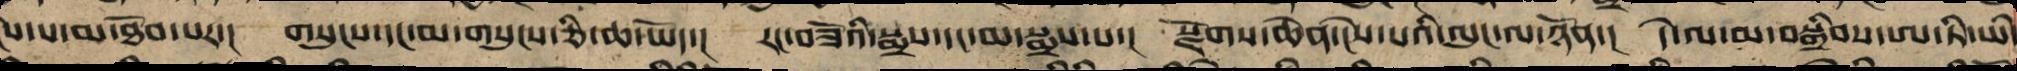ངེས་པ་མ་ཐོབ་པར་། གསུངས་དང་མ་གསུངས་ཅི་ཆ་ཡོད་། རང་བཟོའི་སྨྲས་དང་མ་སྨྲས་པ་། སྫོགས་ཆེན་ངེས་པའི་ལུང་ལ་ཉོན་། དེ་ལ་མ་བསྒྲིབས་ཨ་ཏི་ཡི་
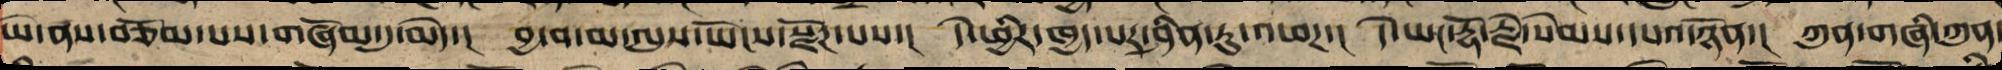ཡེ་ནས་བཅོམ་པས་གཞོམ་དུ་མེད་། བྱ་བ་མ་ལུས་ཡོངས་སྫོགས་པས་། དེ་ཕྱིར་ཁྱད་པར་ཤིན་ཏུ་འཕཌ། དེ་ཡང་རྡོ་རྗེ་སེམས་དཔའ་ཉོན་། ཀུན་གཞི་ཀུན་
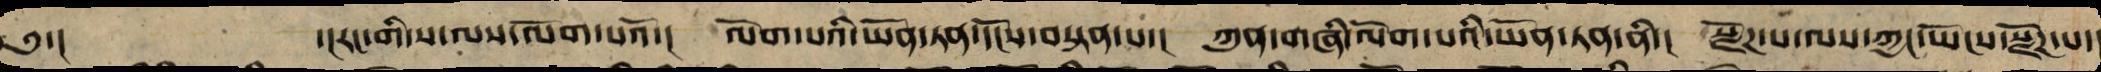༄༅་། ་།རང་གི་ས་ལས་ལོག་པའོ་། ལོག་པའི་ཡོན་ཏན་དངོས་བསྟན་པ་། ཀུན་གཞི་ལོག་པའི་ཡོན་ཏན་ནི་། སྫོཌ་པ་ལས་ཀྱང་ཡོངས་སྫོཌ་པ་།
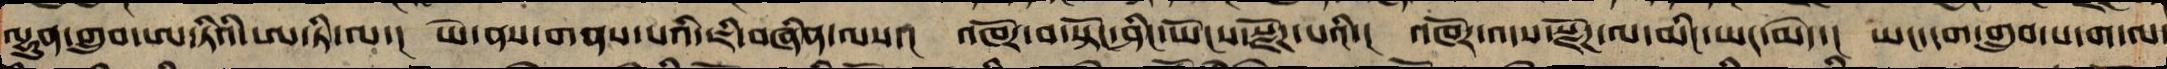ལྷུན་གྲུབ་ཨ་ཏིའི་ཨ་ཏི་ལ་། ཡེ་ནས་གནས་པ་ཇི་བཞིན་ལས་། འཁོར་བ་སྟོང་ཤིང་ཡོངས་སྫོཌ་པའི་། འཁོར་འདས་སྫོཌ་ལ་མིང་ཡང་མེད་། ཡང་དག་གྲུབ་པ་ག་ལ་
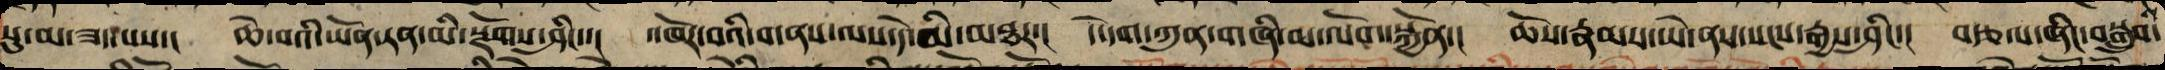སུ་མ་ཟད་པས་། ཆེ་བའི་ཡོན་ཏན་མི་སྫོགས་ཤིང་་། འཁོར་བའི་གནས་ལས་དེ་མི་མཐར་། དེ་དག་ཀུན་གཞི་མ་ལོག་སྐྱོན་། ཆོས་རྣམས་ཡེ་ནས་སངས་རྒྱས་ཤིང་། བརྩལ་ཞིང་བསྒྲུབ་
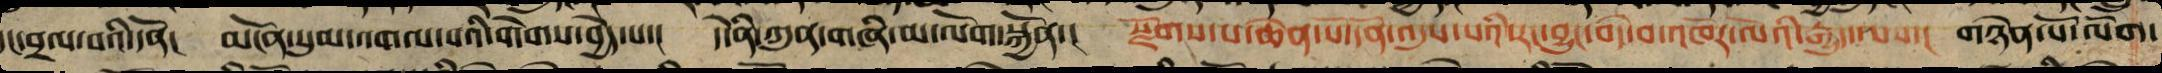དང་བྲལ་བའི་དོན་། མངོན་སུམ་འགལ་བའི་གེགས་བྱེད་པ་། དེ་ནི་ཀུན་གཞི་མ་ལོག་སྐྱོན་། སྫོགས་པ་ཆེན་པོ་དོན་འདུས་པའི་རང་བྱུང་བདེ་བའི་འཁོར་ལོའི་རྒྱུད་ལས་། གཉེན་པོ་ལོག་
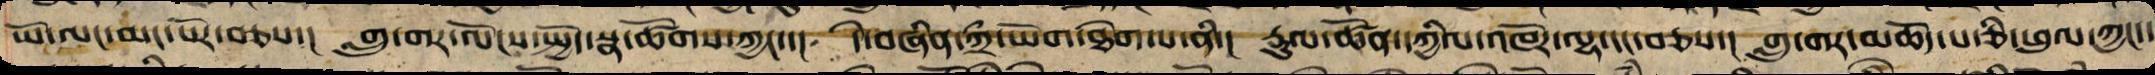ཡོ་ལང་མང་པོར་བཅས་། གླུ་གར་ལོངས་སྤྱོད་སྣ་ཚོགས་ཅན་། དེ་བཞིན་ཀྲྀ་ཡོག་ཐེག་པ་ནི་། རྡུལ་ཚོན་དཀྱིལ་འཁོར་ལྷ་དང་བཅས་། གླུ་གར་མཆོད་པ་ཅི་ཕུལ་ཀྱང་་
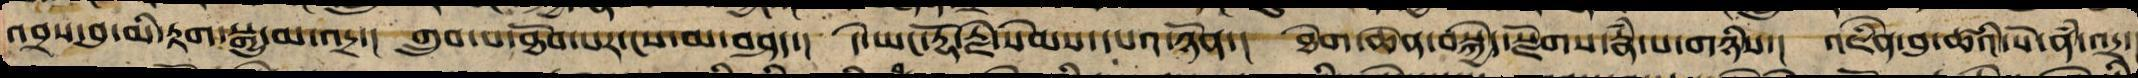འབྲས་བུ་མི་རྟག་སྒྱུ་མ་འདྲ་། གྲུབ་པ་ཐོབ་པར་ངས་མ་བཤད་། དེ་ཡང་རྡོ་རྗེ་སེམས་དཔའ་ཉོན་། ཐེག་ཆེན་བསྐྱེད་སྫོགས་རྣཾ་པ་གཉིས་། འཇིེན་བུ་ཚའི་སོ་ནཾ་འདྲ་
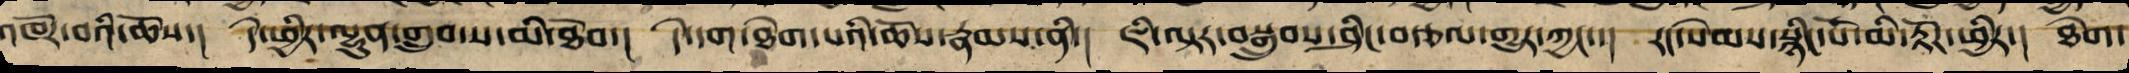འཁོར་བའི་ཆོས་། དེ་ཕྱིར་ལྷུན་གྲུབ་ས་མི་ཐོབ་། དེ་དག་ཐེག་པའི་ཆོས་རྣམས་ནི་། ཇི་ལྟར་བསྒྲུབས་ཤིང་བརྩལ་གྱུར་ཀྱང་་། རང་སེམས་སྙིང་པོ་མི་རྟོཌ་ཕྱིར་། ཐེག་
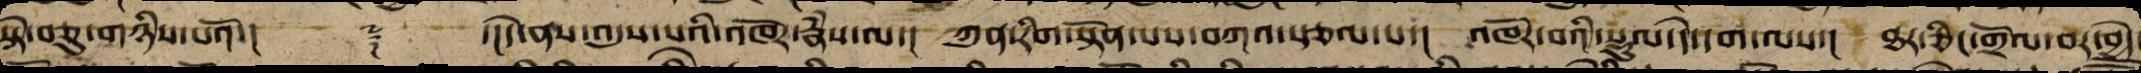སྟེ་བཅུ་གཉིས་པའོ་།། ༈ ་།།དེ་ནས་འདུས་པའི་འཁོར་རྣཾས་ལ་། ཀུན་རིག་སྟོན་པས་བཀའ་སྩལ་པ་། འཁོར་བའི་སྡུལ་དེ་དག་ལས་། ཐར་ཅིང་གྲོལ་བར་བྱེད་
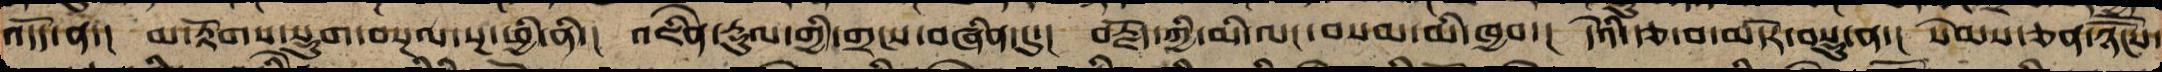འདོད་ན་། མ་རྟོགས་སྡུག་བསྔལ་སྔ་ཕྱི་ནི་། འཇིེན་རྡུལ་གྱི་གྲངས་བཞིན་དུ་། བརྗོད་ཀྱིས་མི་ལངས་བསམ་མི་ཁྱབ་། དེའི་རྩ་བ་མདོར་བསྡུ་ན་། སེམས་ཅན་ཉོཽངས་
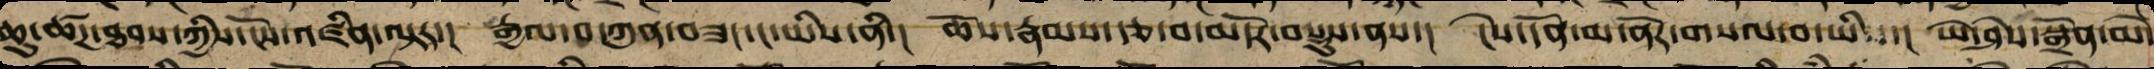ཆུ་ཚཌ་ཐབས་ཀྱིས་ངོས་འཛིན་ལྟར་། རྒྱལ་བ་ཀུན་བཟང་ང་ཡིས་ནི་། ཆོས་རྣམས་རྩ་བ་མདོར་བསྡུས་ནས་། ངེས་དོན་མ་ནོར་གསལ་བ་ཡི་། ཡེ་ཤེས་སྒྲོན་མེ་
